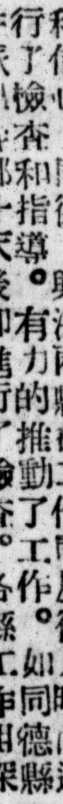行了檢查和指導。有力的推動了工作。如同德縣
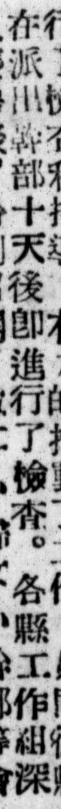在派處幹部十天後卽進行了檢查。各縣工作組深
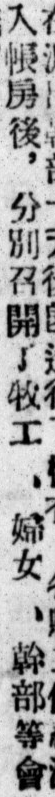入帳房後，分別召開了牧工 、婦女 、幹部等會
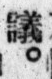議。
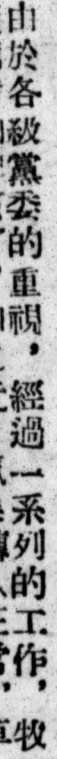由於各級黨委的重視，經過一系列的工作，牧
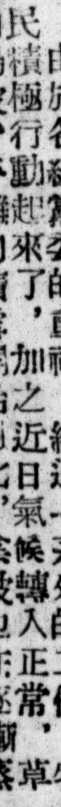民積極行動起來了，加之近日氣候轉入正常，草
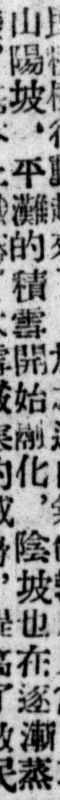山陽坡，平灘的積雪開始融化，陰坡也在逐潮蒸
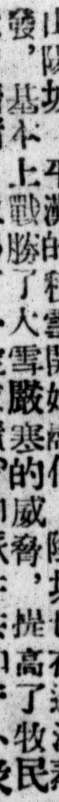發，基本上戰勝了大雪嚴寒的威脅，提高了牧民
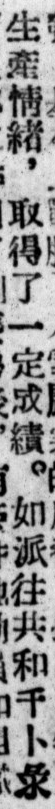生產情緒，取得了一定成績。如派往共和千卜彔
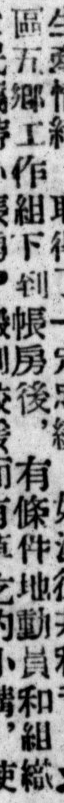區五鄉工作組下到帳房後，有條件地動員和組織
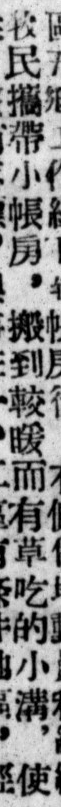牧民攜帶小帳房，搬到較暖而有草吃的小溝，使
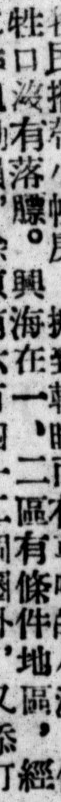牲口沒有落膘。興海在一、二區有條件地區，經
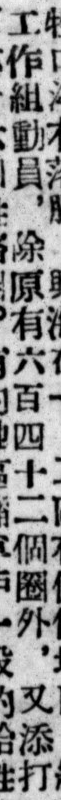工作組動員，除原有六百四十二個圈外，又添打
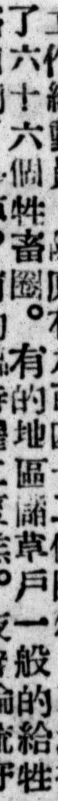了六十六個牲畜圈。有的地區儲草戶一般的給牲
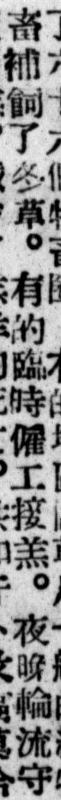畜補飼了冬草。有的臨時僱工接羔。夜晚輪流守
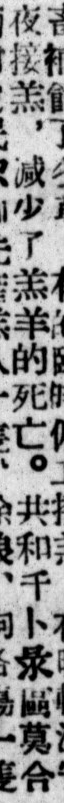夜接羔，減少了羔羊的死亡。共和千卜彔區莫合
